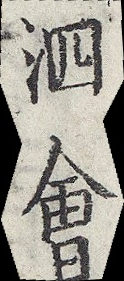泗會
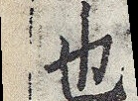也
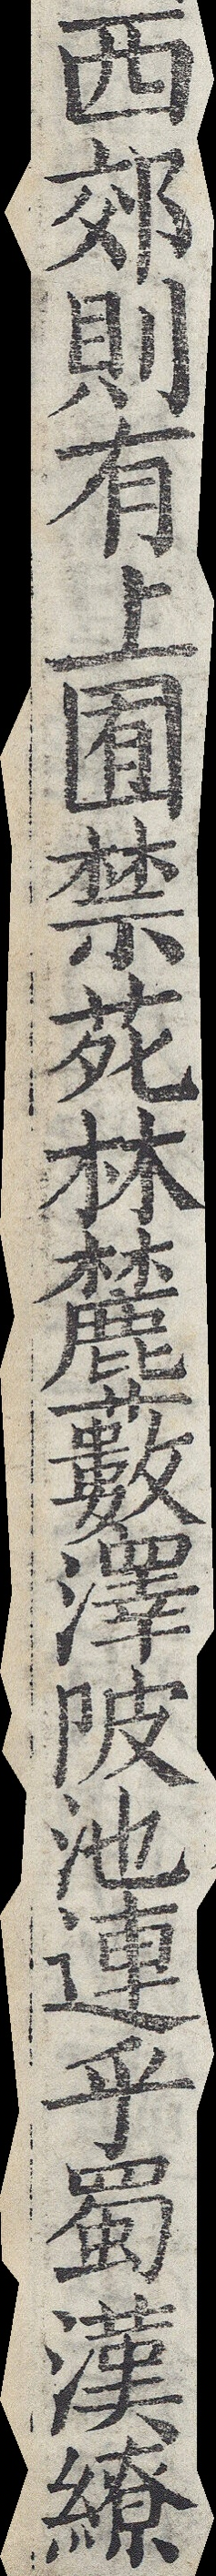西郊則有上囿禁苑林麓藪澤陂池連乎蜀漢繚
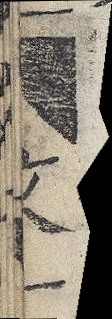文
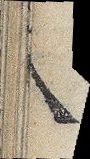八
